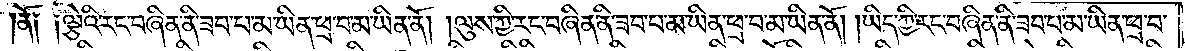ནོ༏ ༏ལྕེའི་རང་བཞིན་ནི་ཟབ་པ་མ་ཡིན་ཕྲ་བ་མ་ཡིན་ནོ། །ལུས་ཀྱི་རང་བཞིན་ནི་ཟབ་པ་མ་ཡིན་ཕྲ་བ་མ་ཡིན་ནོ། །ཡིད་ཀྱི་རང་བཞིན་ནི་ཟབ་པ་མ་ཡིན་ཕྲ་བ་
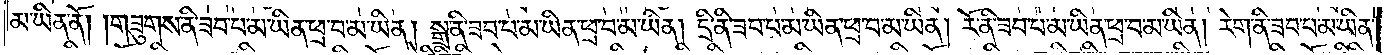མ་ཡིན་ནོ། །གཟུགས་ནི་ཟབ་པ་མ་ཡིན་ཕྲ་བ་མ་ཡིན། སྒྲ་ནི་ཟབ་པ་མ་ཡིན་ཕྲ་བ་མ་ཡིན། དྲི་ནི་ཟབ་པ་མ་ཡིན་ཕྲ་བ་མ་ཡིན། རོ་ནི་ཟབ་པ་མ་ཡིན་ཕྲ་བ་མ་ཡིན། རེག་ནི་ཟབ་པ་མ་ཡིན་
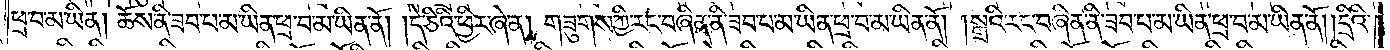ཕྲ་བ་མ་ཡིན། ཆོས་ནི་ཟབ་པ་མ་ཡིན་ཕྲ་བ་མ་ཡིན་ནོ། །དེ་ཅིའི་ཕྱིར་ཞེ་ན། གཟུགས་ཀྱི་རང་བཞིན་ནི་ཟབ་པ་མ་ཡིན་ཕྲ་བ་མ་ཡིན་ནོ། །སྒྲའི་རང་བཞིན་ནི་ཟབ་པ་མ་ཡིན་ཕྲ་བ་མ་ཡིན་ནོ། །དྲིའི་
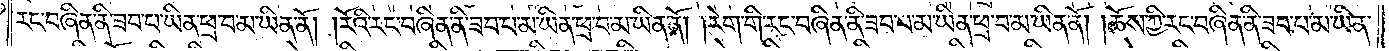རང་བཞིན་ནི་ཟབ་པ་མ་ཡིན་ཕྲ་བ་མ་ཡིན་ནོ། །རོའི་རང་བཞིན་ནི་ཟབ་པ་མ་ཡིན་ཕྲ་བ་མ་ཡིན་ནོ། །རེག་གི་རང་བཞིན་ནི་ཟབ་པ་མ་ཡིན་ཕྲ་བ་མ་ཡིན་ནོ། །ཆོས་ཀྱི་རང་བཞིན་ནི་ཟབ་པ་མ་ཡིན་
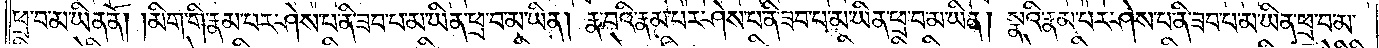ཕྲ་བ་མ་ཡིན་ནོ། །མིག་གི་རྣམ་པར་ཤེས་པ་ནི་ཟབ་པ་མ་ཡིན་ཕྲ་བ་མ་ཡིན། །རྣ་བའི་རྣམ་པར་ཤེས་པ་ནི་ཟབ་པ་མ་ཡིན་ཕྲ་བ་མ་ཡིན། སྣའི་རྣམ་པར་ཤེས་པ་ནི་ཟབ་པ་མ་ཡིན་ཕྲ་བ་མ་
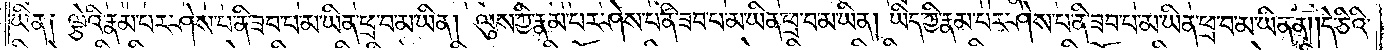ཡིན༏ ལྕེའི་རྣམ་པར་ཤེས་པ་ནི་ཟབ་པ་མ་ཡིན་ཕྲ་བ་མ་ཡིན། ལུས་ཀྱི་རྣམ་པར་ཤེས་པ་ནི་ཟབ་པ་མ་ཡིན་ཕྲ་བ་མ་ཡིན། ཡིད་ཀྱི་རྣམ་པར་ཤེས་པ་ནི་ཟབ་པ་མ་ཡིན་ཕྲ་བ་མ་ཡིན་ནོ། །དེ་ཅིའི་
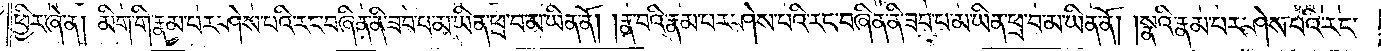ཕྱིར་ཞེ་ན། མིག་གི་རྣམ་པར་ཤེས་པའི་རང་བཞིན་ནི་ཟབ་པ་མ་ཡིན་ཕྲ་བ་མ་ཡིན་ནོ། །རྣ་བའི་རྣམ་པར་ཤེས་པའི་རང་བཞིན་ནི་ཟབ་པ་མ་ཡིན་ཕྲ་བ་མ་ཡིན་ནོ། །སྣའི་རྣམ་པར་ཤེས་པའི་རང་
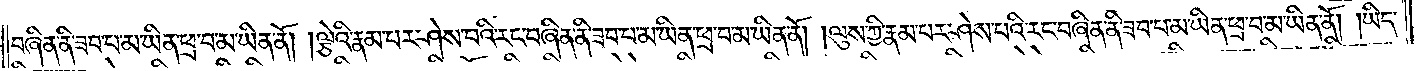བཞིན་ནི་ཟབ་པ་མ་ཡིན་ཕྲ་བ་མ་ཡིན་ནོ། །ལྕེའི་རྣམ་པར་ཤེས་པའི་རང་བཞིན་ནི་ཟབ་པ་མ་ཡིན་ཕྲ་བ་མ་ཡིན་ནོ། །ལུས་ཀྱི་རྣམ་པར་ཤེས་པའི་རང་བཞིན་ནི་ཟབ་པ་མ་ཡིན་ཕྲ་བ་མ་ཡིན་ནོ། །ཡིད་
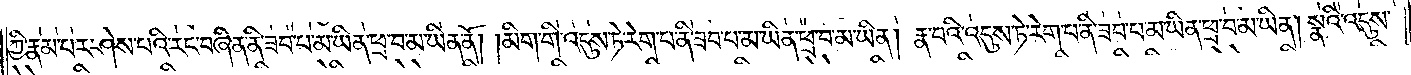ཀྱི་རྣམ་པར་ཤེས་པའི་རང་བཞིན་ནི་ཟབ་པ་མ་ཡིན་ཕྲ་བ་མ་ཡིན་ནོ། །མིག་གི་འདུས་ཏེ་རེག་པ་ནི་ཟབ་པ་མ་ཡིན་ཕྲ་བ་མ་ཡིན། རྣ་བའི་འདུས་ཏེ་རེག་པ་ནི་ཟབ་པ་མ་ཡིན་ཕྲ་བ་མ་ཡིན། སྣའི་འདུས་
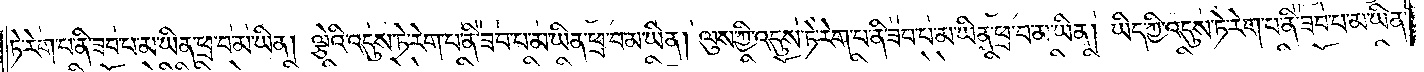ཏེ་རེག་པ་ནི་ཟབ་པ་མ་ཡིན་ཕྲ་བ་མ་ཡིན། ལྕེའི་འདུས་ཏེ་རེག་པ་ནི་ཟབ་པ་མ་ཡིན་ཕྲ་བ་མ་ཡིན། ལུས་ཀྱི་འདུས་ཏེ་རེག་པ་ནི་ཟབ་པ་མ་ཡིན་ཕྲ་བ་མ་ཡིན། ཡིད་ཀྱི་འདུས་ཏེ་རེག་པ་ནི་ཟབ་པ་མ་ཡིན་
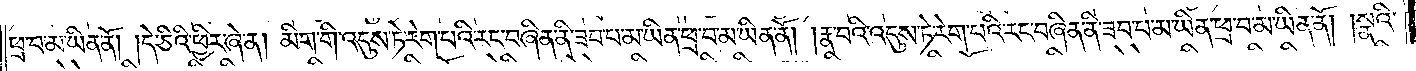ཕྲ་བ་མ་ཡིན་ནོ། །དེ་ཅིའི་ཕྱིར་ཞེ་ན། མིག་གི་འདུས་ཏེ་རེག་པའི་རང་བཞིན་ནི་ཟབ་པ་མ་ཡིན་ཕྲ་བ་མ་ཡིན་ནོ། །རྣ་བའི་འདུས་ཏེ་རེག་པའི་རང་བཞིན་ནི་ཟབ་པ་མ་ཡིན་ཕྲ་བ་མ་ཡིན་ནོ། །སྣའི་
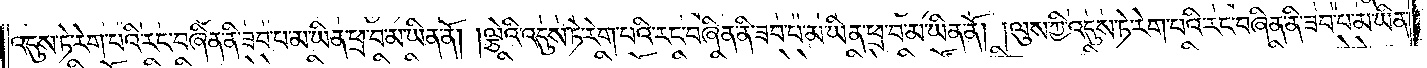འདུས་ཏེ་རེག་པའི་རང་བཞིན་ནི་ཟབ་པ་མ་ཡིན་ཕྲ་བ་མ་ཡིན་ནོ། །ལྕེའི་འདུས་ཏེ་རེག་པའི་རང་བཞིན་ནི་ཟབ་པ་མ་ཡིན་ཕྲ་བ་མ་ཡིན་ནོ། །ལུས་ཀྱི་འདུས་ཏེ་རེག་པའི་རང་བཞིན་ནི་ཟབ་པ་མ་ཡིན་
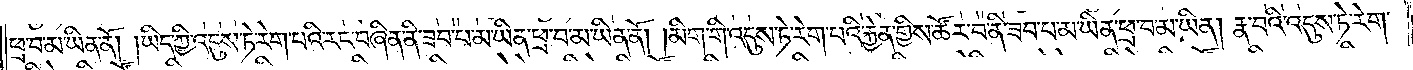ཕྲ་བ་མ་ཡིན་ནོ། །ཡིད་ཀྱི་འདུས་ཏེ་རེག་པའི་རང་བཞིན་ནི་ཟབ་པ་མ་ཡིན་ཕྲ་བ་མ་ཡིན་ནོ། །མིག་གི་འདུས་ཏེ་རེག་པའི་རྐྱེན་གྱིས་ཚོར་བ་ནི་ཟབ་པ་མ་ཡིན་ཕྲ་བ་མ་ཡིན། རྣ་བའི་འདུས་ཏེ་རེག་
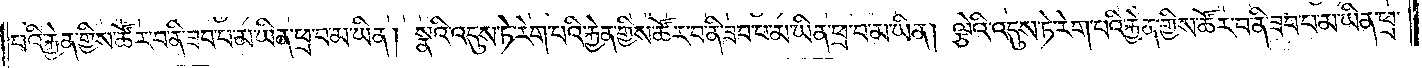པའི་རྐྱེན་གྱིས་ཚོར་བ་ནི་ཟབ་པ་མ་ཡིན་ཕྲ་བ་མ་ཡིན། སྣའི་འདུས་ཏེ་རེག་པའི་རྐྱེན་གྱིས་ཚོར་བ་ནི་ཟབ་པ་མ་ཡིན་ཕྲ་བ་མ་ཡིན། ལྕེའི་འདུས་ཏེ་རེག་པའི་རྐྱེན་གྱིས་ཚོར་བ་ནི་ཟབ་པ་མ་ཡིན་ཕྲ་
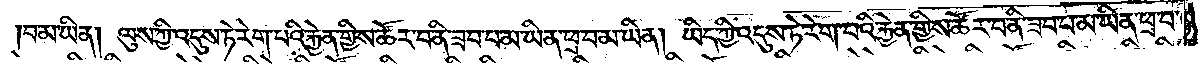བ་མ་ཡིན། ལུས་ཀྱི་འདུས་ཏེ་རེག་པའི་རྐྱེན་གྱིས་ཚོར་བ་ནི་ཟབ་པ་མ་ཡིན་ཕྲ་བ་མ་ཡིན། ཡིད་ཀྱི་འདུས་ཏེ་རེག་པའི་རྐྱེན་གྱིས་ཚོར་བ་ནི་ཟབ་པ་མ་ཡིན་ཕྲ་བ་
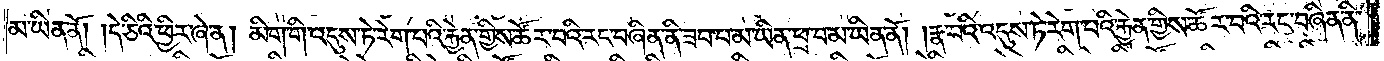མ་ཡིན་ནོ། །དེ་ཅིའི་ཕྱིར་ཞེ་ན། མིག་གི་འདུས་ཏེ་རེག་པའི་རྐྱེན་གྱིས་ཚོར་བའི་རང་བཞིན་ནི་ཟབ་པ་མ་ཡིན་ཕྲ་བ་མ་ཡིན་ནོ། །རྣ་བའི་འདུས་ཏེ་རེག་པའི་རྐྱེན་གྱིས་ཚོར་བའི་རང་བཞིན་ནི་
